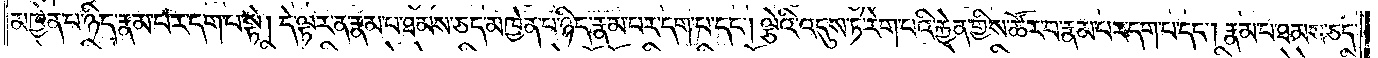མཁྱེན་པ་ཉིད་རྣམ་པར་དག་པ་སྟེ། དེ་ལྟར་ན་རྣམ་པ་ཐམས་ཅད་མཁྱེན་པ་ཉིད་རྣམ་པར་དག་པ་དང༌། ལྕེའི་འདུས་ཏེ་རེག་པའི་རྐྱེན་གྱིས་ཚོར་བ་རྣམ་པར་དག་པ་དང༌། རྣམ་པ་ཐམས་ཅད་
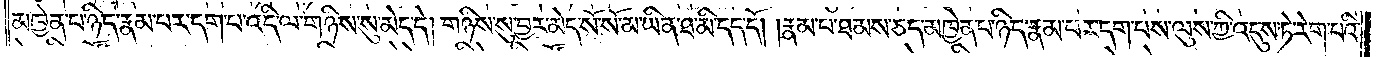མཁྱེན་པ་ཉིད་རྣམ་པར་དག་པ་འདི་ལ་གཉིས་སུ་མེད་དེ། གཉིས་སུ་བྱར་མེད་སོ་སོ་མ་ཡིན་ཐ་མི་དད་དོ། །རྣམ་པ་ཐམས་ཅད་མཁྱེན་པ་ཉིད་རྣམ་པར་དག་པས་ལུས་ཀྱི་འདུས་ཏེ་རེག་པའི་
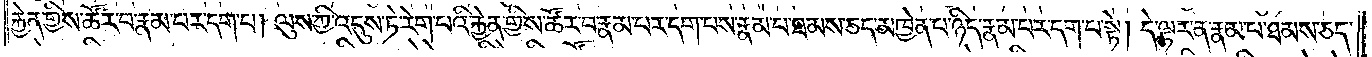རྐྱེན་གྱིས་ཚོར་བ་རྣམ་པར་དག་པ། ལུས་ཀྱི་འདུས་ཏེ་རེག་པའི་རྐྱེན་གྱིས་ཚོར་བ་རྣམ་པར་དག་པས་རྣམ་པ་ཐམས་ཅད་མཁྱེན་པ་ཉིད་རྣམ་པར་དག་པ་སྟེ། དེ་ལྟར་ན་རྣམ་པ་ཐམས་ཅད་
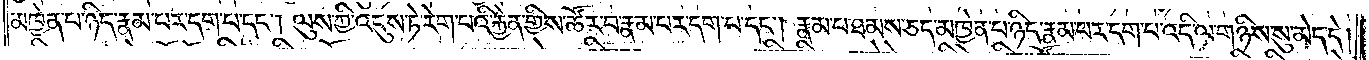མཁྱེན་པ་ཉིད་རྣམ་པར་དག་པ་དང༌། ལུས་ཀྱི་འདུས་ཏེ་རེག་པའི་རྐྱེན་གྱིས་ཚོར་བ་རྣམ་པར་དག་པ་དང༌། རྣམ་པ་ཐམས་ཅད་མཁྱེན་པ་ཉིད་རྣམ་པར་དག་པ་འདི་ལ་གཉིས་སུ་མེད་དེ།
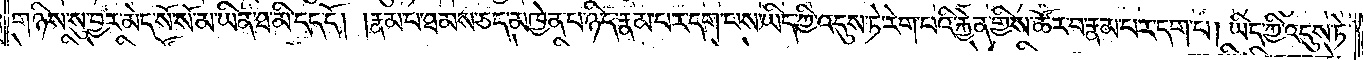གཉིས་སུ་བྱར་མེད་སོ་སོ་མ་ཡིན་ཐ་མི་དད་དོ། །རྣམ་པ་ཐམས་ཅད་མཁྱེན་པ་ཉིད་རྣམ་པར་དག་པས་ཡིད་ཀྱི་འདུས་ཏེ་རེག་པའི་རྐྱེན་གྱིས་ཚོར་བ་རྣམ་པར་དག་པ། ཡིད་ཀྱི་འདུས་ཏེ་
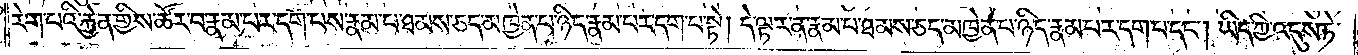རེག་པའི་རྐྱེན་གྱིས་ཚོར་བ་རྣམ་པར་དག་པས་རྣམ་པ་ཐམས་ཅད་མཁྱེན་པ་ཉིད་རྣམ་པར་དག་པ་སྟེ། དེ་ལྟར་ན་རྣམ་པ་ཐམས་ཅད་མཁྱེན་པ་ཉིད་རྣམ་པར་དག་པ་དང༌། ཡིད་ཀྱི་འདུས་ཏེ་
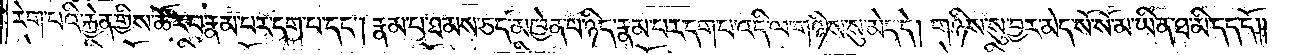རེག་པའི་རྐྱེན་གྱིས་ཚོར་བ་རྣམ་པར་དག་པ་དང༌། རྣམ་པ་ཐམས་ཅད་མཁྱེན་པ་ཉིད་རྣམ་པར་དག་པ་འདི་ལ་གཉིས་སུ་མེད་དེ། གཉིས་སུ་བྱར་མེད་སོ་སོ་མ་ཡིན་ཐ་མི་དད་དོ༎
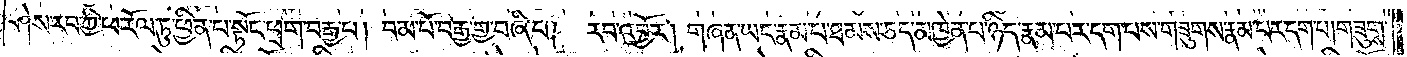ཤེས་རབ་ཀྱི་ཕ་རོལ་ཏུ་ཕྱིན་པ་སྟོང་ཕྲག་བརྒྱ་པ། བམ་པོ་བརྒྱ་གྱ་བཞི་པ། རབ་འབྱོར། གཞན་ཡང་རྣམ་པ་ཐམས་ཅད་མཁྱེན་པ་ཉིད་རྣམ་པར་དག་པས་གཟུགས་རྣམ་པར་དག་པ། གཟུགས་
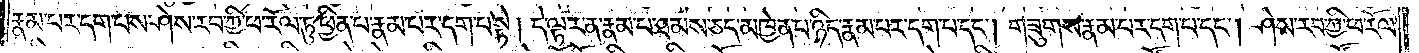རྣམ་པར་དག་པས་ཤེས་རབ་ཀྱི་ཕ་རོལ་ཏུ་ཕྱིན་པ་རྣམ་པར་དག་པ་སྟེ། དེ་ལྟར་ན་རྣམ་པ་ཐམས་ཅད་མཁྱེན་པ་ཉིད་རྣམ་པར་དག་པ་དང༌། གཟུགས་རྣམ་པར་དག་པ་དང༌། ཤེས་རབ་ཀྱི་ཕ་རོལ་
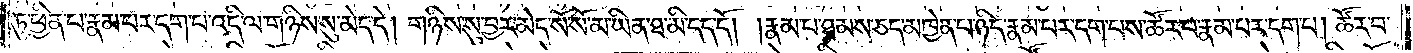ཏུ་ཕྱིན་པ་རྣམ་པར་དག་པ་འདི་ལ་གཉིས་སུ་མེད་དེ། གཉིས་སུ་བྱར་མེད་སོ་སོ་མ་ཡིན་ཐ་མི་དད་དོ། །རྣམ་པ་ཐམས་ཅད་མཁྱེན་པ་ཉིད་རྣམ་པར་དག་པས་ཚོར་བ་རྣམ་པར་དག་པ། ཚོར་བ་
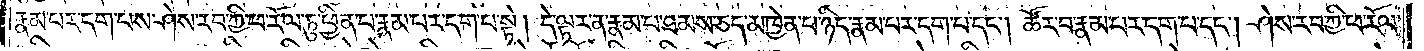རྣམ་པར་དག་པས་ཤེས་རབ་ཀྱི་ཕ་རོལ་ཏུ་ཕྱིན་པ་རྣམ་པར་དག་པ་སྟེ། དེ་ལྟར་ན་རྣམ་པ་ཐམས་ཅད་མཁྱེན་པ་ཉིད་རྣམ་པར་དག་པ་དང༌། ཚོར་བ་རྣམ་པར་དག་པ་དང༌། ཤེས་རབ་ཀྱི་ཕ་རོལ་
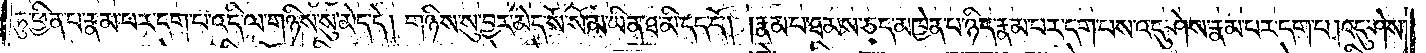ཏུ་ཕྱིན་པ་རྣམ་པར་དག་པ་འདི་ལ་གཉིས་སུ་མེད་དེ། གཉིས་སུ་བྱར་མེད་སོ་སོ་མ་ཡིན་ཐ་མི་དད་དོ། །རྣམ་པ་ཐམས་ཅད་མཁྱེན་པ་ཉིད་རྣམ་པར་དག་པས་འདུ་ཤེས་རྣམ་པར་དག་པ། འདུ་ཤེས་
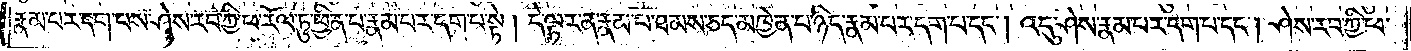རྣམ་པར་དག་པས་ཤེས་རབ་ཀྱི་ཕ་རོལ་ཏུ་ཕྱིན་པ་རྣམ་པར་དག་པ་སྟེ། དེ་ལྟར་ན་རྣམ་པ་ཐམས་ཅད་མཁྱེན་པ་ཉིད་རྣམ་པར་དག་པ་དང༌། འདུ་ཤེས་རྣམ་པར་དག་པ་དང༌། ཤེས་རབ་ཀྱི་ཕ་
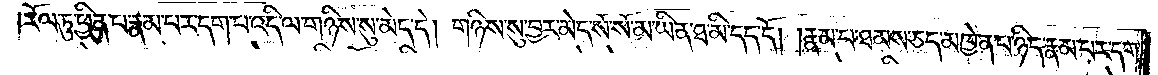རོལ་ཏུ་ཕྱིན་པ་རྣམ་པར་དག་པ་འདི་ལ་གཉིས་སུ་མེད་དེ། གཉིས་སུ་བྱར་མེད་སོ་སོ་མ་ཡིན་ཐ་མི་དད་དོ། །རྣམ་པ་ཐམས་ཅད་མཁྱེན་པ་ཉིད་རྣམ་པར་དག་
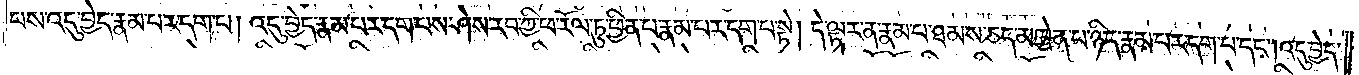པས་འདུ་བྱེད་རྣམ་པར་དག་པ། འདུ་བྱེད་རྣམ་པར་དག་པས་ཤེས་རབ་ཀྱི་ཕ་རོལ་ཏུ་ཕྱིན་པ་རྣམ་པར་དག་པ་སྟེ། དེ་ལྟར་ན་རྣམ་པ་ཐམས་ཅད་མཁྱེན་པ་ཉིད་རྣམ་པར་དག་པ་དང༌། འདུ་བྱེད་
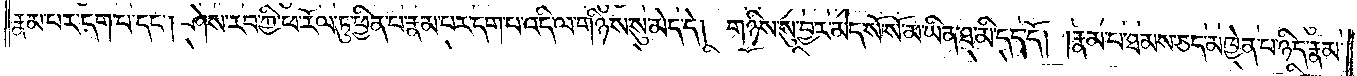རྣམ་པར་དག་པ་དང༌། ཤེས་རབ་ཀྱི་ཕ་རོལ་ཏུ་ཕྱིན་པ་རྣམ་པར་དག་པ་འདི་ལ་གཉིས་སུ་མེད་དེ། གཉིས་སུ་བྱར་མེད་སོ་སོ་མ་ཡིན་ཐ་མི་དད་དོ། །རྣམ་པ་ཐམས་ཅད་མཁྱེན་པ་ཉིད་རྣམ་
